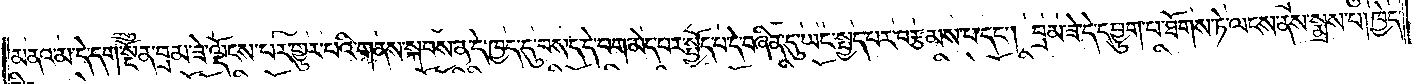མནའ་མ་དེ་དག་སྔོན་བྲམ་ཟེ་ལྡོངས་པར་གྱུར་བའི་གནས་སྐབས་ན་དེ་ཁྱད་དུ་བསད་དེ་བག་མེད་པར་སྤྱོད་པ་དེ་བཞིན་དུ་ཡང་སྤྱད་པར་བརྩམས་པ་དང༌། བྲམ་ཟེ་དེ་དབྱུག་པ་ཐོགས་ཏེ་ལངས་ནས་སྨྲས་པ། ཁྱེད་
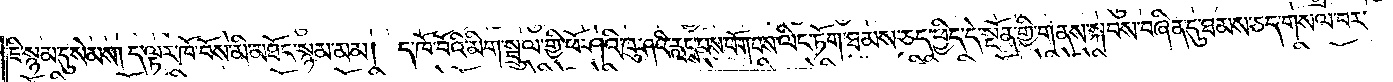ཇི་སྙམ་དུ་སེམས། ད་ལྟར་ཁོ་བོས་མི་མཐོང་སྙམ་མམ། ད་ཁོ་བོའི་མིག་སྦྲུལ་གྱི་ཕོ་ཤའི་ཁུ་ཤའི་རླངས་པས་ཕོག་པས་ལིང་ཏོག་ཐམས་ཅད་ཕྱིད་དེ་སྔོན་གྱི་གནས་སྐབས་བཞིན་དུ་ཐམས་ཅད་གསལ་བར་
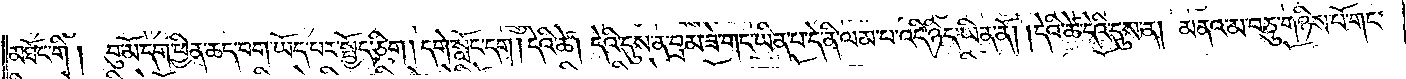མཐོང་གི །བུ་མོ་དག་ཕྱིན་ཆད་བག་ཡོད་པར་སྤྱོད་ཅིག །དགེ་སློང་དག །དེའི་ཚེ། དེའི་དུས་ན་བྲམ་ཟེ་གང་ཡིན་པ་དེ་ནི་ལམ་པ་འདི་ཉིད་ཡིན་ནོ། །དེའི་ཚེ་དེའི་དུས་ན། མནའ་མ་བཅུ་གཉིས་པོ་གང་
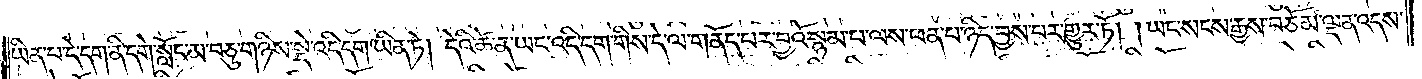ཡིན་པ་དེ་དག་ནི་དགེ་སློང་མ་བཅུ་གཉིས་སྡེ་འདི་དག་ཡིན་ཏེ། དེའི་ཚེ་ན་ཡང་འདི་དག་གིས་དེ་ལ་གནོད་པར་བྱའོ་སྙམ་པ་ལས་ཕན་པ་ཉིད་བྱས་པར་གྱུར་ཏོ། །ཡང་སངས་རྒྱས་བཅོམ་ལྡན་འདས་
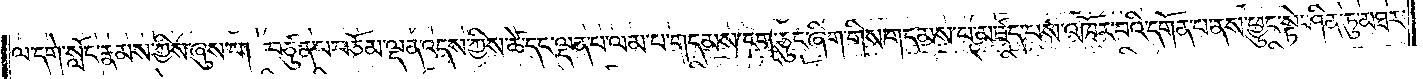ལ་དགེ་སློང་རྣམས་ཀྱིས་ཞུས་པ། བཙུན་པ་བཅོམ་ལྡན་འདས་ཀྱིས་ཚེ་དང་ལྡན་པ་ལམ་པ་གདམས་ངག་ཅུང་ཞིག་གིས་གདམས་པ་མཛད་པས་འཁོར་བའི་དགོན་པ་ནས་ཕྱུང་སྟེ་ཤིན་ཏུ་མཐར་
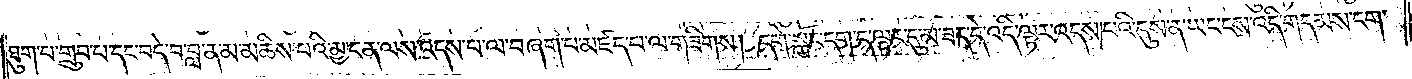ཐུག་པ་གྲུབ་པ་དང་བདེ་བ་བླ་ན་མ་མཆིས་པའི་མྱ་ངན་ལས་འདས་པ་ལ་བཞག་པ་མཛད་པ་ལ་གཟིགས། དགེ་སློང་དག་ད་ལྟར་དུ་མ་ཟད་དེ་འདི་ལྟར་འདས་པའི་དུས་ན་ཡང་ངས་འདི་གདམས་ངག་
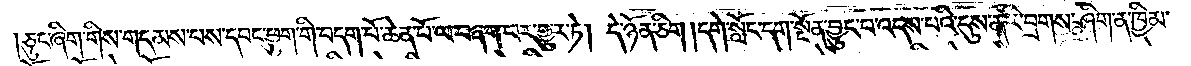ཅུང་ཞིག་གིས་གདམས་པས་དབང་ཕྱུག་གི་བདག་པོ་ཆེན་པོ་ལ་བཞག་པར་གྱུར་ཏེ། དེ་ཉོན་ཅིག །དགེ་སློང་དག་སྔོན་བྱུང་བ་འདས་པའི་དུས་ན་རི་བྲགས་ཤིག་ན་ཁྱིམ་
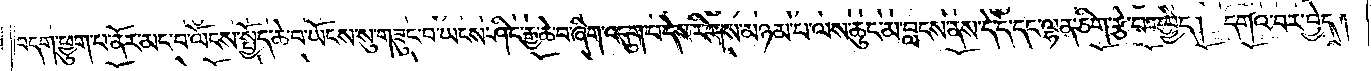བདག་ཕྱུག་པ་ནོར་མང་བ་ལོངས་སྤྱོད་ཆེ་བ་ཡོངས་སུ་གཟུང་བ་ཡངས་ཤིང་རྒྱ་ཆེ་བ་ཞིག་འདུག་པ་དེས་རིགས་མཉམ་པ་ལས་ཆུང་མ་བླངས་ནས་དེ་དེ་དང་ལྷན་ཅིག་རྩེ་བར་བྱེད། དགའ་བར་བྱེད།
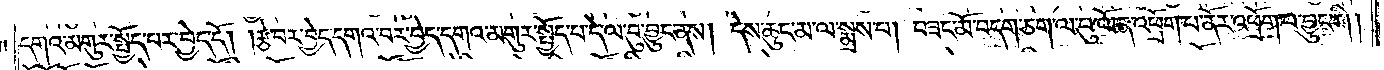དགའ་མགུར་སྤྱོད་པར་བྱེད་དོ། །རྩེ་བར་བྱེད་དགའ་བར་བྱེད་དགའ་མགུར་སྤྱོད་པ་དེ་ལ་བུ་བྱུང་ནས། དེས་ཆུང་མ་ལ་སྨྲས་པ། བཟང་མོ་བདག་ཅག་ལ་བུ་ལོན་འཕྲོག་པ་ནོར་འཕྲོག་པ་བྱུང་གི །
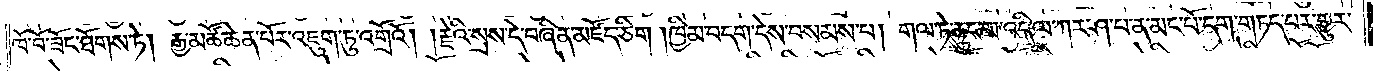ཁོ་བོ་ཟོང་ཐོགས་ཏེ། རྒྱ་མཚོ་ཆེན་པོར་འཇུག་ཏུ་འགྲོའོ། །རྗེའི་སྲས་དེ་བཞིན་མཛོད་ཅིག །ཁྱིམ་བདག་དེས་བསམས་པ། གལ་ཏེ་ཆུང་མ་འདི་ལ་ཀར་ཤ་པ་ན་མང་པོ་དག་གཏད་པར་གྱུར་
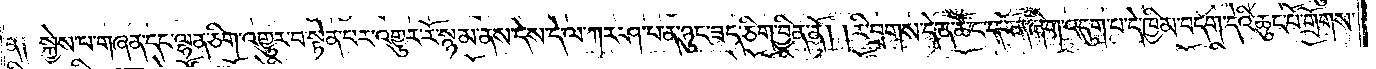ན༑ སྐྱེས་པ་གཞན་དང་ལྷན་ཅིག་འགྱུར་པ་སྟེན་པར་འགྱུར་རོ་སྙམ་ནས་དེས་དེ་ལ་ཀར་ཤ་པ་ན་ཉུང་ཟད་ཅིག་བྱིན་ནོ། །རི་བྲགས་དེ་ན་ཚོང་དཔོན་ཞིག་འདུག་པ་དེ་ཁྱིམ་བདག་དེའི་ཆུང་པོ་གྲོགས་
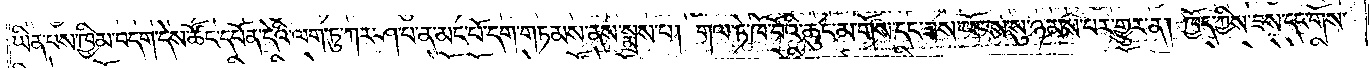ཡིན་པས་ཁྱིམ་བདག་དེས་ཚོང་དཔོན་དེའི་ལག་ཏུ་ཀར་ཤ་པ་ན་མང་པོ་དག་གཏམས་ནས་སྨྲས་པ། གལ་ཏེ་ཁོ་བོའི་ཆུང་མ་གོས་དང་ཟས་ཡོངས་སུ་ཉམས་པར་གྱུར་ན། ཁྱོད་ཀྱིས་ཟས་དང་གོས་
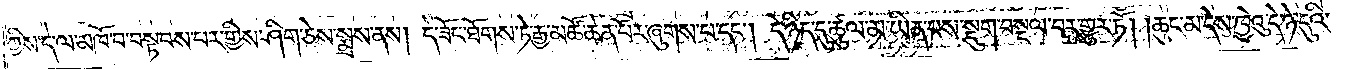ཀྱིས་དེ་ལ་མཁོ་བ་བསྟབས་པར་གྱིས་ཤིག་ཅེས་སྨྲས་ནས། དེ་ཟོང་ཐོགས་ཏེ་རྒྱ་མཚོ་ཆེན་པོར་ཞུགས་པ་དང༌། དེ་ཉིད་དུ་ཚུལ་མ་ཡིན་པས་སྡུག་བསྔལ་བར་གྱུར་ཏོ། །ཆུང་མ་དེས་ཁྱེའུ་དེ་ཉེ་དུའི་
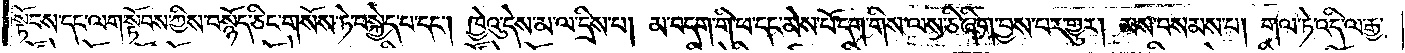སྟོབས་དང་ལག་སྟོབས་ཀྱིས་བསྙོད་ཅིང་གསོས་ཏེ་བསྐྱེད་པ་དང༌། ཁྱེའུ་དེས་མ་ལ་དྲིས་པ། མ་བདག་གི་ཕ་དང་མེས་པོ་དག་གིས་ལས་ཅི་ཞིག་བྱས་པར་གྱུར། མས་བསམས་པ། གལ་ཏེ་འདི་ལ་རྒྱ་
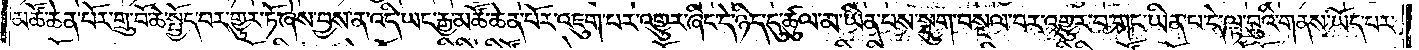མཚོ་ཆེན་པོར་གྲུ་པོ་ཆེ་སྤྱོད་པར་གྱུར་ཏོ་ཞེས་བྱས་ན་འདི་ཡང་རྒྱ་མཚོ་ཆེན་པོར་འཇུག་པར་འགྱུར་ཞིང་དེ་ཉིད་དུ་ཚུལ་མ་ཡིན་པས་སྡུག་བསྔལ་བར་འགྱུར་བ་གང་ཡིན་པ་དེ་ལྟ་བུའི་གནས་ཡོད་པར་
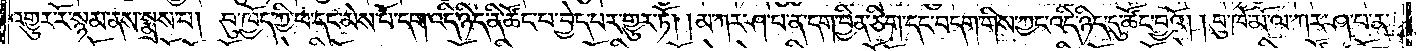འགྱུར་རོ་སྙམ་ནས་སྨྲས་པ། བུ་ཁྱོད་ཀྱི་ཕ་དང་མེས་པོ་དག་འདི་ཉིད་ནི་ཚོང་བ་བྱེད་པར་གྱུར་ཏོ། །མ་ཀར་ཤ་པ་ན་དག་བྱིན་ཅིག་དང་བདག་གིས་ཀྱང་འདི་ཉིད་དུ་ཚོང་བྱའོ། །བུ་ཁོ་མོ་ལ་ཀར་ཤ་བ་ན་
